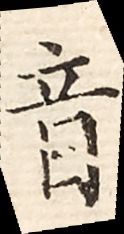音
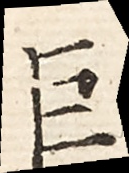巨
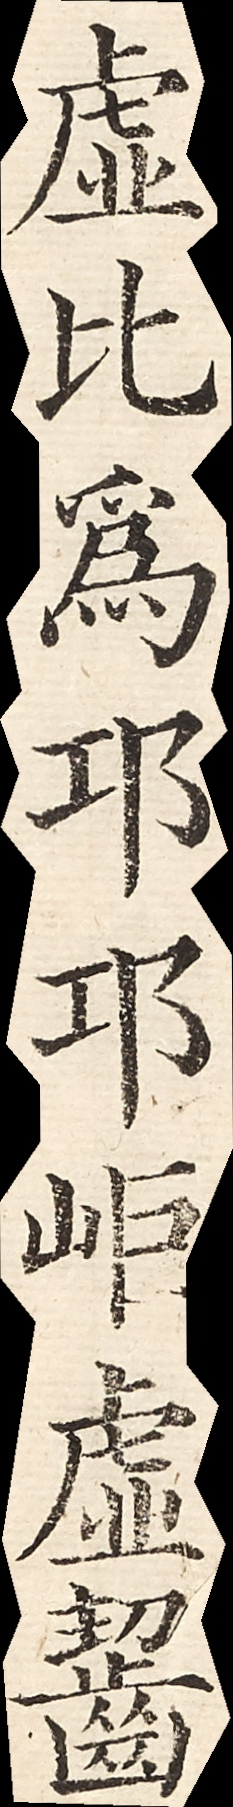虛比為邛邛岠虛齧
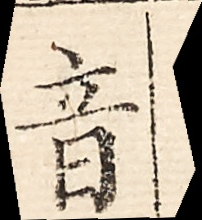音
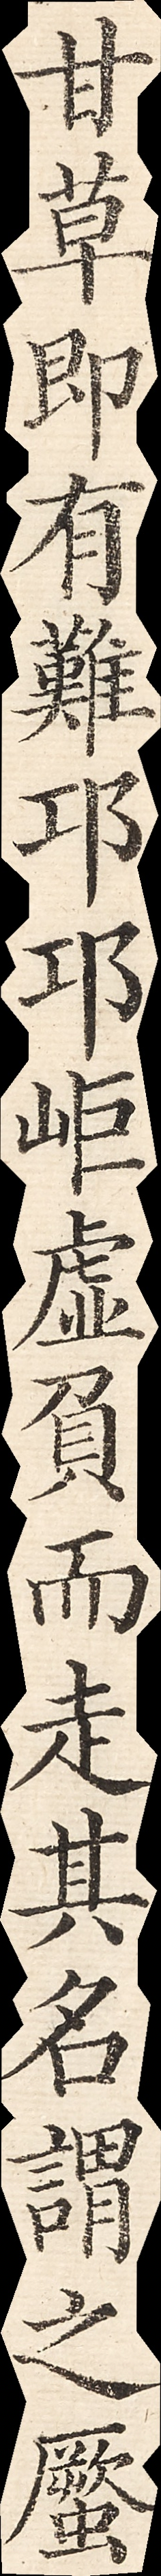甘草即有難邛邛巨虛負而走其名謂之蹷
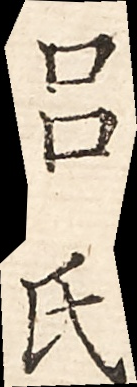呂氏
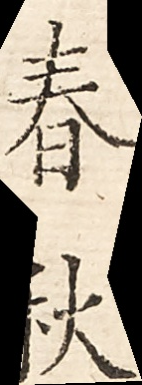春秋
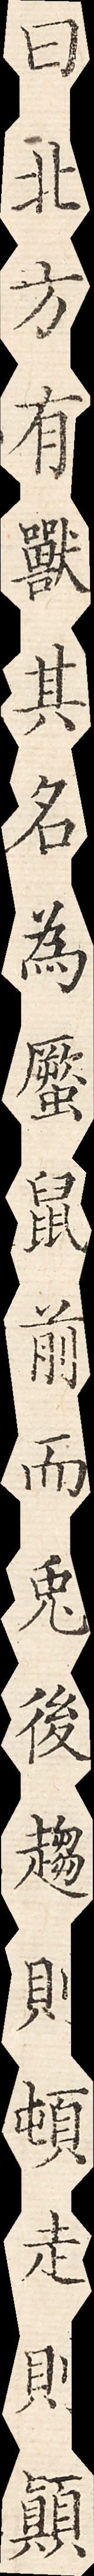曰北方有獸其名為蹷鼠前而兔後趨則頓走則顛
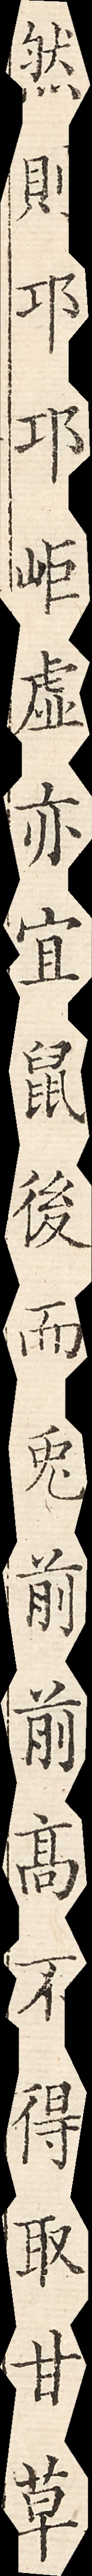然則邛邛巨虛亦宜鼠後而兔前前高不得取甘草
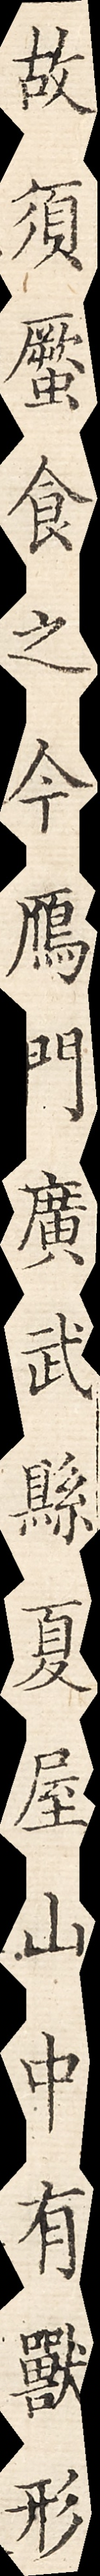故須蹷食之今雁門廣武縣夏屋山中有獸形
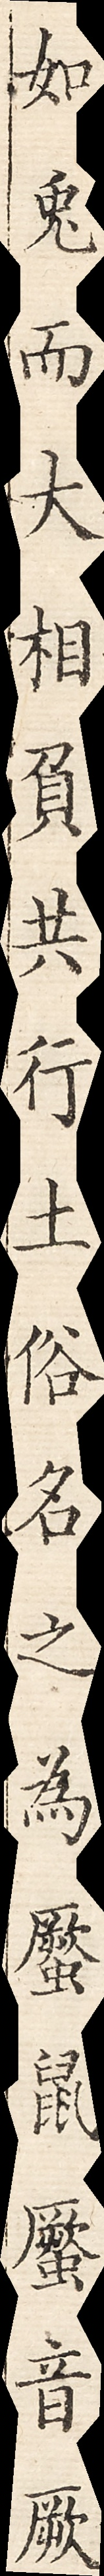如兔而大相負共行土俗名之為蹷鼠蹷音厥
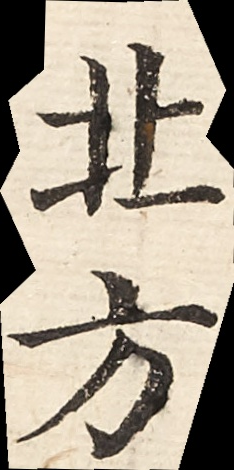北方
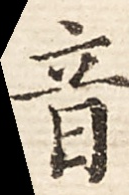音
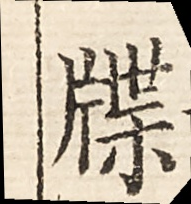牒
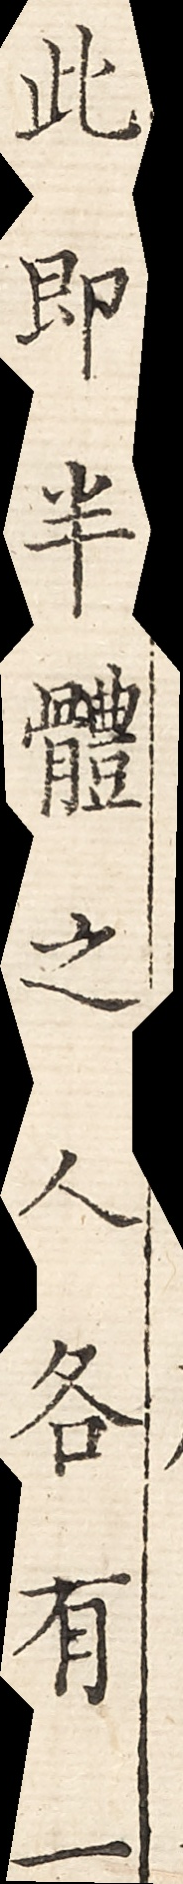此即半體之人各有一
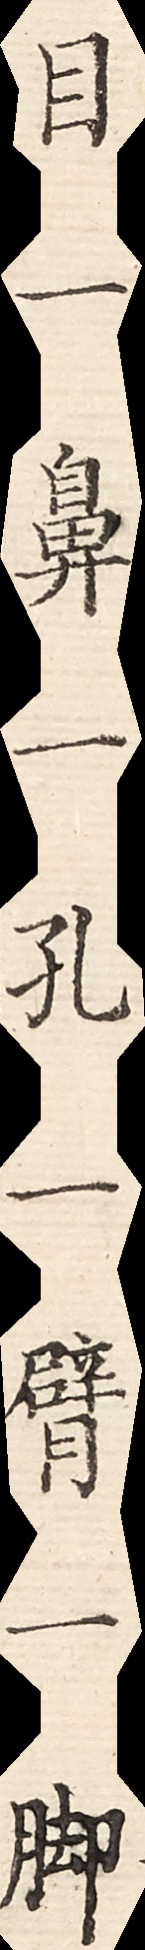目一鼻一孔一臂一腳
